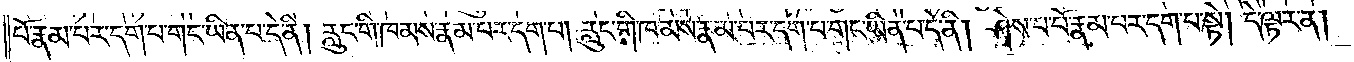པོ་རྣམ་པར་དག་པ་གང་ཡིན་པ་དེ་ནི། རླུང་གི་ཁམས་རྣམ་པར་དག་པ། རླུང་གི་ཁམས་རྣམ་པར་དག་པ་གང་ཡིན་པ་དེ་ནི། ཤེས་པ་པོ་རྣམ་པར་དག་པ་སྟེ། དེ་ལྟར་ན་
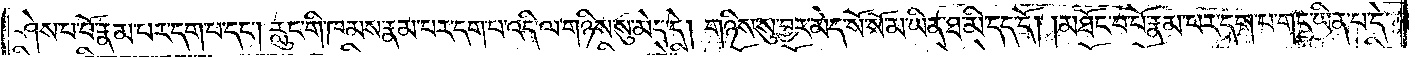ཤེས་པ་པོ་རྣམ་པར་དག་པ་དང༌། རླུང་གི་ཁམས་རྣམ་པར་དག་པ་འདི་ལ་གཉིས་སུ་མེད་དེ། གཉིས་སུ་བྱར་མེད་སོ་སོ་མ་ཡིན་ཐ་མི་དད་དོ། །མཐོང་བ་པོ་རྣམ་པར་དག་པ་གང་ཡིན་པ་དེ་
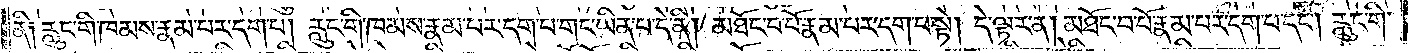ནི། རླུང་གི་ཁམས་རྣམ་པར་དག་པ། རླུང་གི་ཁམས་རྣམ་པར་དག་པ་གང་ཡིན་པ་དེ་ནི། མཐོང་བ་པོ་རྣམ་པར་དག་པ་སྟེ། དེ་ལྟར་ན་མཐོང་བ་པོ་རྣམ་པར་དག་པ་དང༌། རླུང་གི་
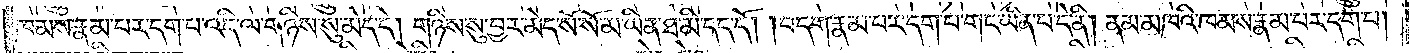ཁམས་རྣམ་པར་དག་པ་འདི་ལ་གཉིས་སུ་མེད་དེ། གཉིས་སུ་བྱར་མེད་སོ་སོ་མ་ཡིན་ཐ་མི་དད་དོ། །བདག་རྣམ་པར་དག་པ་གང་ཡིན་པ་དེ་ནི། ནམ་མཁའི་ཁམས་རྣམ་པར་དག་པ།
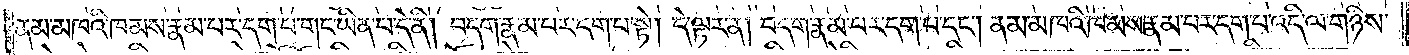ནམ་མཁའི་ཁམས་རྣམ་པར་དག་པ་གང་ཡིན་པ་དེ་ནི། བདག་རྣམ་པར་དག་པ་སྟེ། དེ་ལྟར་ན། བདག་རྣམ་པར་དག་པ་དང༌། ནམ་མཁའི་ཁམས་རྣམ་པར་དག་པ་འདི་ལ་གཉིས་
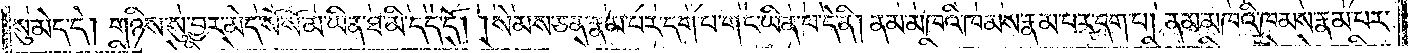སུ་མེད་དེ། གཉིས་སུ་བྱར་མེད་སོ་སོ་མ་ཡིན་ཐ་མི་དད་དོ། །སེམས་ཅན་རྣམ་པར་དག་པ་གང་ཡིན་པ་དེ་ནི། ནམ་མཁའི་ཁམས་རྣམ་པར་དག་པ། ནམ་མཁའི་ཁམས་རྣམ་པར་
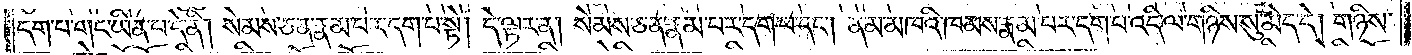དག་པ་གང་ཡིན་པ་དེ་ནི། སེམས་ཅན་རྣམ་པར་དག་པ་སྟེ། དེ་ལྟར་ན། སེམས་ཅན་རྣམ་པར་དག་པ་དང༌། ནམ་མཁའི་ཁམས་རྣམ་པར་དག་པ་འདི་ལ་གཉིས་སུ་མེད་དེ། གཉིས་
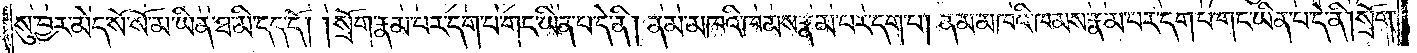སུ་བྱར་མེད་སོ་སོ་མ་ཡིན་ཐ་མི་དད་དོ། །སྲོག་རྣམ་པར་དག་པ་གང་ཡིན་པ་དེ་ནི། ནམ་མཁའི་ཁམས་རྣམ་པར་དག་པ། ནམ་མཁའི་ཁམས་རྣམ་པར་དག་པ་གང་ཡིན་པ་དེ་ནི། སྲོག་
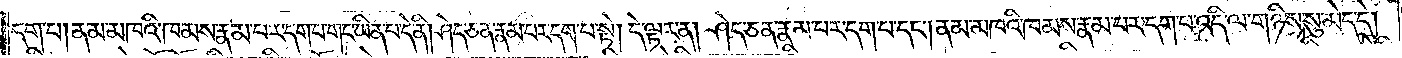དག་པ། ནམ་མཁའི་ཁམས་རྣམ་པར་དག་པ་གང་ཡིན་པ་དེ་ནི། ཤེད་ཅན་རྣམ་པར་དག་པ་སྟེ། དེ་ལྟར་ན། ཤེད་ཅན་རྣམ་པར་དག་པ་དང༌། ནམ་མཁའི་ཁམས་རྣམ་པར་དག་པ་འདི་ལ་གཉིས་སུ་མེད་དེ་
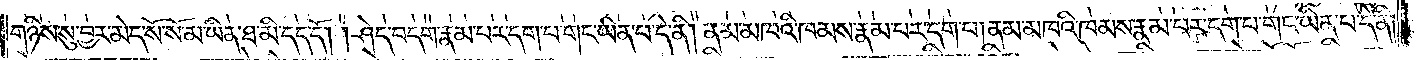གཉིས་སུ་བྱར་མེད་སོ་སོ་མ་ཡིན་ཐ་མི་དད་དོ། །ཤེད་བདག་རྣམ་པར་དག་པ་གང་ཡིན་པ་དེ་ནི། ནམ་མཁའི་ཁམས་རྣམ་པར་དག་པ། ནམ་མཁའི་ཁམས་རྣམ་པར་དག་པ་གང་ཡིན་པ་དེ་ནི།
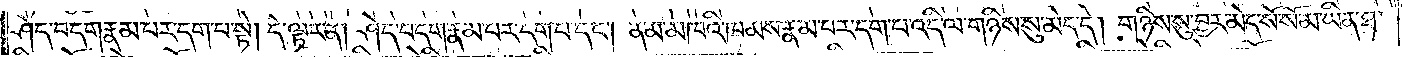ཤེད་བདག་རྣམ་པར་དག་པ་སྟེ། དེ་ལྟར་ན། ཤེད་བདག་རྣམ་པར་དག་པ་དང༌། ནམ་མཁའི་ཁམས་རྣམ་པར་དག་པ་འདི་ལ་གཉིས་སུ་མེད་དེ། གཉིས་སུ་བྱར་མེད་སོ་སོ་མ་ཡིན་ཐ་
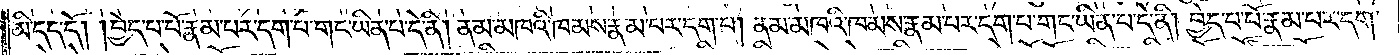མི་དད་དོ། །བྱེད་པ་པོ་རྣམ་པར་དག་པ་གང་ཡིན་པ་དེ་ནི། ནམ་མཁའི་ཁམས་རྣམ་པར་དག་པ། ནམ་མཁའི་ཁམས་རྣམ་པར་དག་པ་གང་ཡིན་པ་དེ་ནི། བྱེད་པ་པོ་རྣམ་པར་དག་
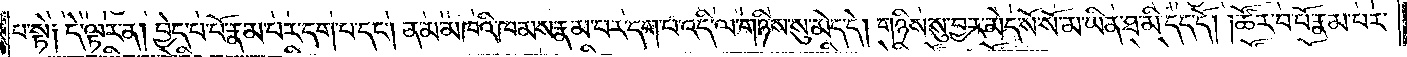པ་སྟེ༑ དེ་ལྟར་ན། བྱེད་པ་པོ་རྣམ་པར་དག་པ་དང༌། ནམ་མཁའི་ཁམས་རྣམ་པར་དག་པ་འདི་ལ་གཉིས་སུ་མེད་དེ། གཉིས་སུ་བྱར་མེད་སོ་སོ་མ་ཡིན་ཐ་མི་དད་དོ། །ཚོར་བ་པོ་རྣམ་པར་
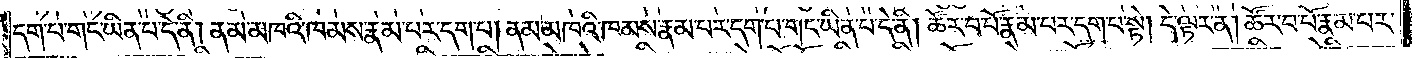དག་པ་གང་ཡིན་པ་དེ་ནི། ནམ་མཁའི་ཁམས་རྣམ་པར་དག་པ། ནམ་མཁའི་ཁམས་རྣམ་པར་དག་པ་གང་ཡིན་པ་དེ་ནི། ཚོར་བ་པོ་རྣམ་པར་དག་པ་སྟེ། དེ་ལྟར་ན། ཚོར་བ་པོ་རྣམ་པར་
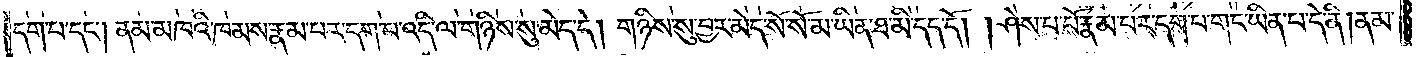དག་པ་དང༌། ནམ་མཁའི་ཁམས་རྣམ་པར་དག་པ་འདི་ལ་གཉིས་སུ་མེད་དེ། གཉིས་སུ་བྱར་མེད་སོ་སོ་མ་ཡིན་ཐ་མི་དད་དོ། །ཤེས་པ་པོ་རྣམ་པར་དག་པ་གང་ཡིན་པ་དེ་ནི། ནམ་
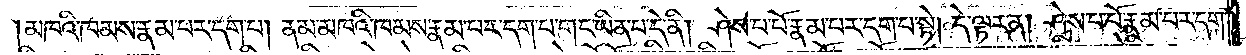མཁའི་ཁམས་རྣམ་པར་དག་པ། ནམ་མཁའི་ཁམས་རྣམ་པར་དག་པ་གང་ཡིན་པ་དེ་ནི། ཤེས་པ་པོ་རྣམ་པར་དག་པ་སྟེ། དེ་ལྟར་ན། ཤེས་པ་པོ་རྣམ་པར་དག་
